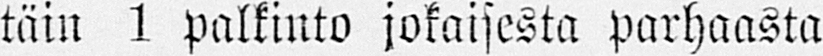täin 1 palkinto jokaisesta parhaasta
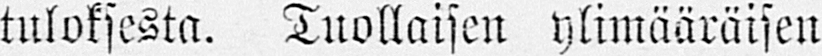tuloksesta. Tuollaisen ylimääräisen
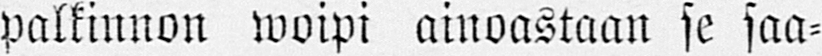palkinnon woipi ainoastaan se saa-
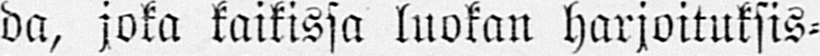da, joka kaikissa luokan harjoituksis-
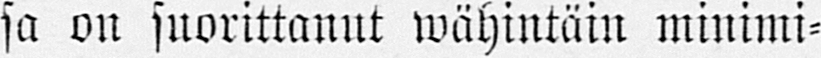sa on suorittanut wähintäin minimi-
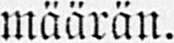määrän.
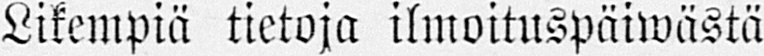Likempiä tietoja ilmoituspäiwästä
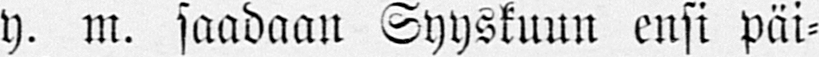y. m. saadaan Syyskuun ensi päi-
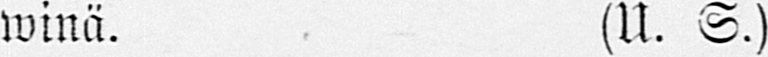winä. (U. S.)
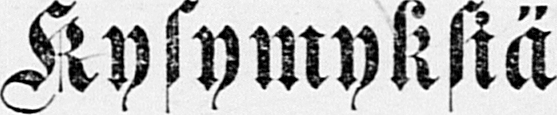Kysymyksiä
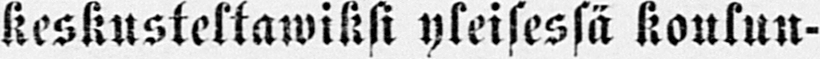keskusteltawiksi yleisessä koulun-
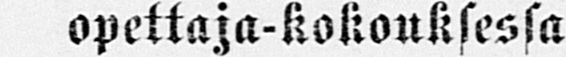opettaja-kokouksessa Hellsin-
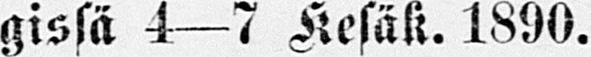gissä 4—7 kesäk. 1890.
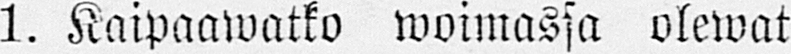1. Kaipaawatko woimassa olewat
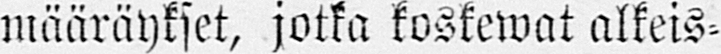määräykset, jotka koskewat alkeis-
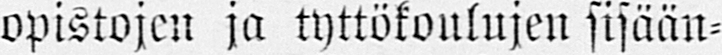opistojen ja tyttökoulujen sisään-
